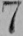7
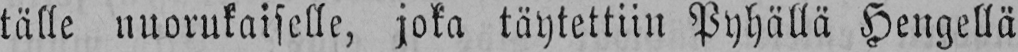tälle nuorukaiselle, joka täytettiin Pyhällä Hengellä
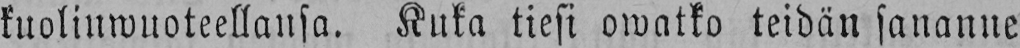kuolinwuoteellansa. Kuka tiesi owatko teidän sananne
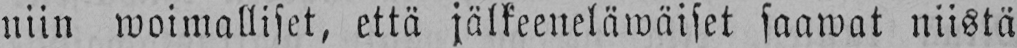niin woimalliset, että jälkeeneläwäiset saawat niistä
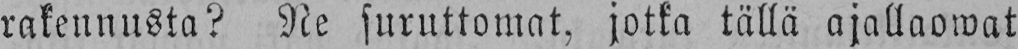rakennusta? Ne suruttomat, jotka tällä ajallaowat
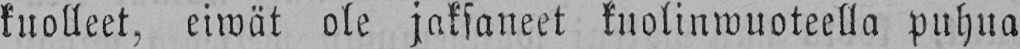kuolleet, eiwät ole jaksaneet kuolinwuoteella puhua
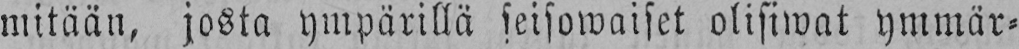mitään, josta ympärillä seisowaiset olisiwat ymmär-
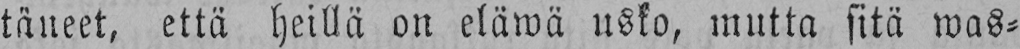täneet, että heillä on eläwä usko, mutta sitä was-
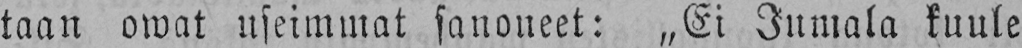taan owat useimmat sanoneet: „Ei Jumala kuule
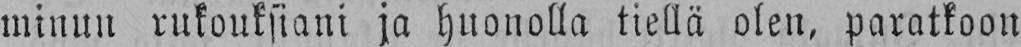minun rukouksiani ja huonolla tiellä olen, paratkoon
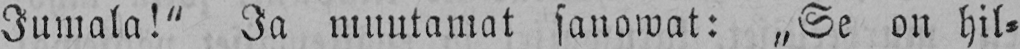Jumala!" Ja muutamat sanowat: „Se on hil-
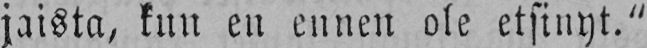jaista, kun en ennen ole etsinyt."
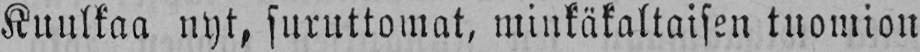Kuulkaa nyt, suruttomat, minkäkaltaisen tuomion
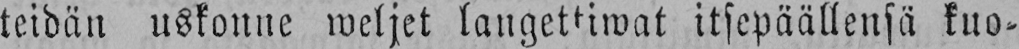teidän uskonne weljet langettiwat itsepäällensä kuo-
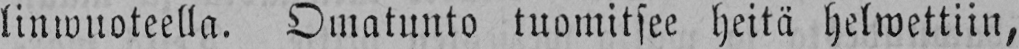linwuoteella. Omatunto tuomitsee heitä helwettiin,
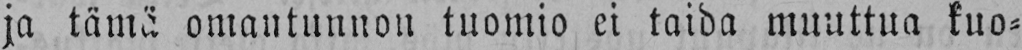ja tämä omantunnon tuomio ei taida muuttua kuo-
